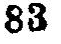83
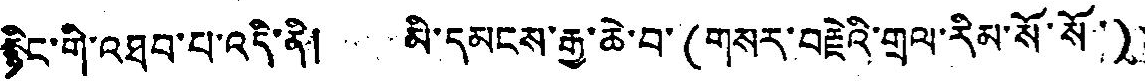རྙིང་གི་འཐབ་པ་འདི་ནི། མི་དམངས་རྒྱ་ཆེ་བ་(གསར་བརྗེའི་གྲལ་རིམ་སོ་སོ་)
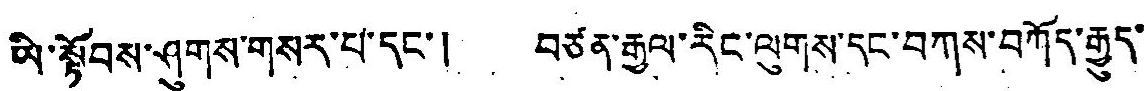ཡི་སྟོབས་ཤུགས་གསར་པ་དང་། བཙན་རྒྱལ་རིང་ལུགས་དང་བཀས་བཀོད་རྒྱུད་
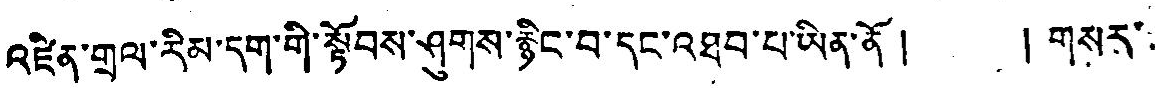འཛིན་གྲལ་རིམ་དག་གི་སྟོབས་ཤུགས་རྙིང་བ་དང་འཐབ་པ་ཡིན་ནོ། །གསར་
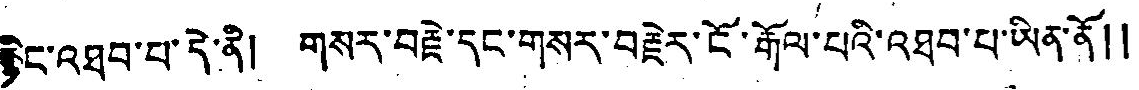ཅིང་འཐབ་པ་དེ་ནི། གསར་བརྗེ་དང་གསར་བརྗེར་ངོ་རྒོལ་པའི་འཐབ་པ་ཡིན་ནོ།།
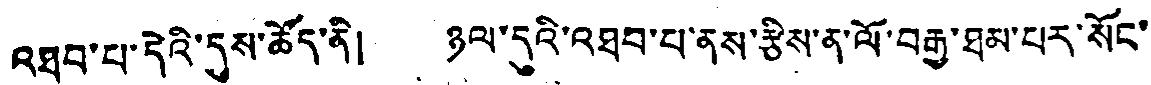འཐབ་པ་དེའི་དུས་ཚོད་ནི། ཉལ་དུའི་འཐབ་པ་ནས་རྩིས་ན་ལོ་བརྒྱ་ཐམ་པར་སོང་
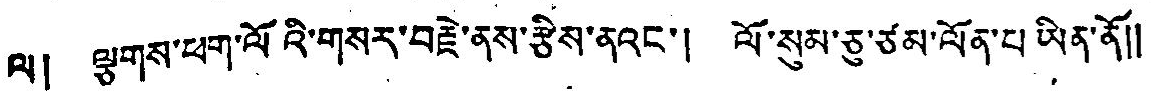ལ། ལྕགས་ཕག་ལོའི་གསར་བརྗེ་ནས་རྩིས་ནའང་། ལོ་སུམ་ཅུ་ཙམ་ལོན་པ ཡིན་ནོ༎
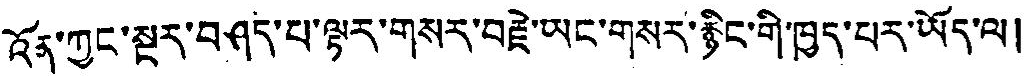འོན་ཀྱང་སྔར་བཤད་པ་ལྟར་གསར་བརྗེ་ཡང་གསར་རྙིང་གི་ཁྱད་པར་ཡོད་ལ།
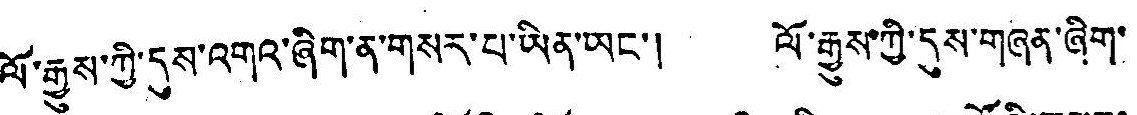ལོ་རྒྱུས་ཀྱི་དུས་འགའ་ཞིག་ན་གསར་པ་ཡིན་ཡང་། ལོ་རྒྱུས་ཀྱི་དུས་གཞན་ཞིག་
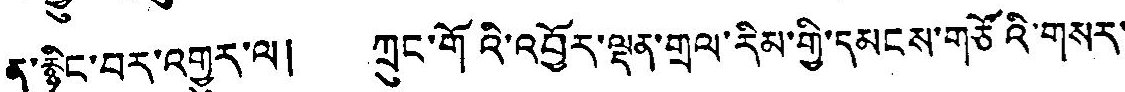ད་རྙིང་བར་འགྱུར་ལ། ཀྲུང་གོའི་འབྱོར་ལྡན་གྲལ་རིམ་གྱི་དམངས་གཙོའི་གསར་
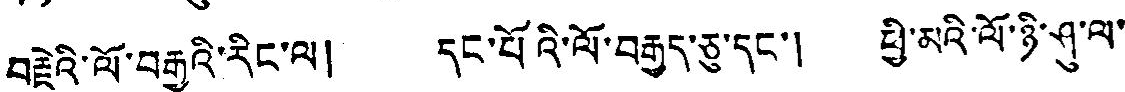བརྗེའི་ལོ་བརྒྱའི་རིང་ལ། དང་པོའི་ལོ་བརྒྱད་ཅུ་དང་། ཕྱི་མའི་ལོ་ཉི་ཤུ་ལ་
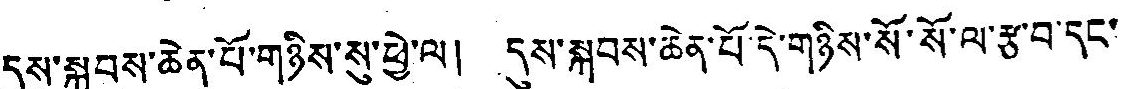དུས་སྐབས་ཆེན་པོ་གཉིས་སུ་ཕྱེ་ལ། དུས་སྐབས་ཆེན་པོ་དེ་གཉིས་སོ་སོ་ལ་རྩ་བ་དང་
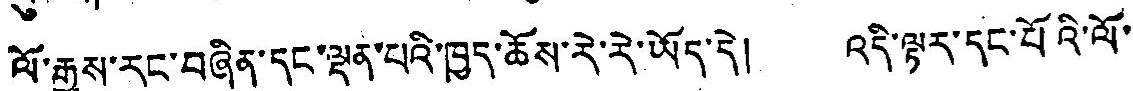ལོ་རྒྱུས་རང་བཞིན་དང་ལྡན་པའི་ཁྱད་ཆོས་རེ་རེ་ཡོད་དེ། འདི་ལྟར་དང་པོའི་ལོ་
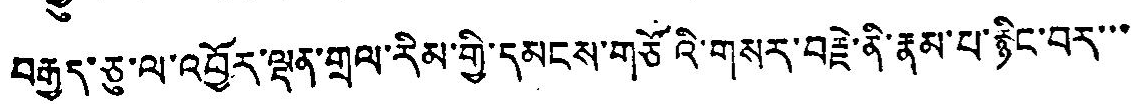བརྒྱད་ཅུ་ལ་འབྱོར་ལྡན་གྲལ་རིམ་གྱི་དམངས་གཙོའི་གསར་བརྗེ་ནི་རྣམ་པ་རྙིང་བར་་་
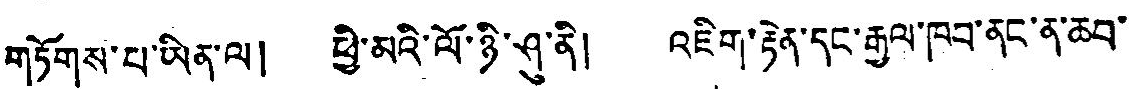གཏོགས་པ་ཡིན་ལ། ཕྱི་མའི་ལོ་ཉི་ཤུ་ནི། འཇིག་རྟེན་དང་རྒྱལ་ཁབ་ནང་ན་ཆབ་
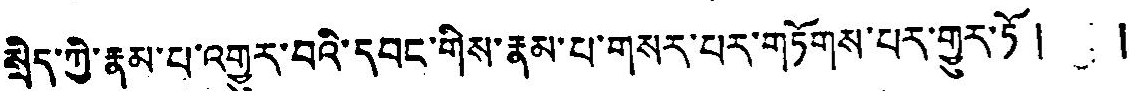སྲིད་ཀྱི་རྣམ་པ་འགྱུར་བའི་དབང་གིས་རྣམ་པ་གསར་པར་གཏོགས་པར་གྱུར་ཏོ། །
